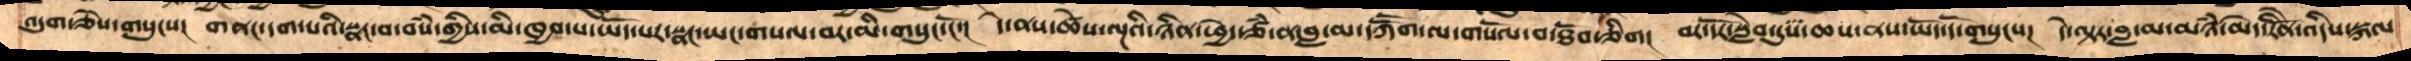འདུག་ཅེས་གསུངས།  གནང་དག་པའི་སྣང་བ་བསཾ་གྱིས་མི་ཁྱབ་པ་ཡོད་པར་སྣང་ཡང་གསལ་བར་མི་གསུང་ངོ་།  དེ་ནས་ཚེས་ལྔའི་ཉིན་ཕྱེད་ཙཾ་ན་བླ་མ་དཀཽག་ལ་གསོལ་བ་ཐོབ་ཅིག  བར་དོར་སླེབ་དུས་ཆས་ནས་ཡོད་དོ་གསུངས།  དེ་ལྟར་བླ་མ་མཉཾ་མེད་རིནོེ་འདིས་སྐལ
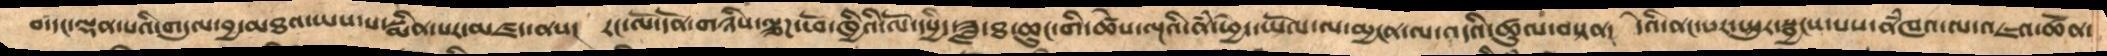བ་དང་ལྡན་པའི་གདུལ་བྱ་མཐའ་ཡས་པ་སྨིན་པར་མཛད་ནས།  རང་ལོ་དོན་གཉིས་པ་ལྕཌ་ཕོ་ཁྱིའི་ལོ་དཔྱིད་ཟླ་ཐ་ཆུང་གི་ཚེས་ལྔའི་ནཾ་ཕྱེད་ཡོལ་ལ་མྱ་ངན་ལ་འདའི་ཚུལ་བསྟན།  དེའི་ནང་བར་སྤུར་སྦྱངས་པས་ནཾཁའ་ལ་འཇའ་ཚོན་
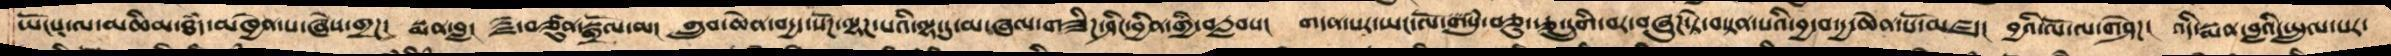ཡོངས་ལ་མཆིམ་ཐཾད་མཁྱེན་པ་ཞེས་གྲཌ།  སྨན་བླ།  རྗེ་བཙུན་སྒྲོལ་མ།  གྲུབ་ཆེན་བདྱད་སོཌ་ལྷཌ་པའི་ལྷ་དུ་མ་ཞལ་གཟིཌ་ཤིང་བྱིན་གྱི་བརླབས།   གདན་པར་ཡང་ལོ་གསུཾ་བཅུ་རྩ་དྲུགི་བར་བཞུཌ་ཏེ་བསྟན་པའི་བྱ་བ་དྱ་ཆེན་པོ་མཛད།  བྱའི་ལོ་ལ་གཤེཌ།  འདི་སྨན་བླའི་སྤྲུལ་པར་
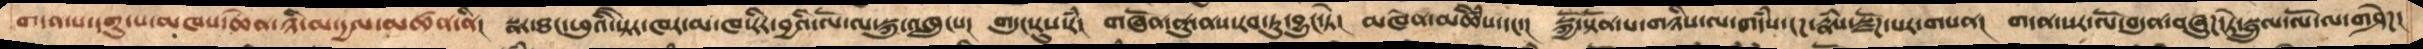གདན་ས་དགུ་པ་མཁས་ཆེན་ཉི་མ་དྱལ་མཚན་ནི།   སྣར་ཐང་ཕུའི་སྟེར་ཁར་མ་ཁ་རིར་བྱའི་ལོ་ལ་སྐུ་འཁྲུངས།   གདུང་རུས་རཾ།  གཞོན་ནུ་ནས་རབ་ཏུ་བྱུང་ཏེ།  མཁེན་མཆིཾས་དང་།  སྐྱོ་སྟོན་པ་གཉིས་ལ་གདཾས་ངཌ་རྣཾས་སྫོཌ་པར་གསན།   གདན་སར་ལོ་བདུན་བཞུཌ་ཏེ་སྦྲུལ་ལོ་ལ་གཤེཌ།
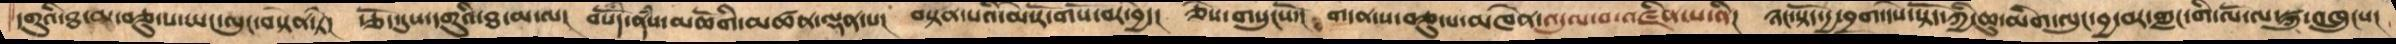དགུའི་ཐ་ན་བཅུ་པ་ཡང་ལུང་བསྟན་ཏེ།  རྩོད་དུས་དགུའི་ཐ་མ་ལ།  བསོད་ནཾས་མཆོགི་མཚན་ལྡན་པ།  བསྟན་པའི་མེ་རོ་གསོ་བར་བྱེད།  ཅེས་གསུངསོ་།  གདན་ས་བཅུ་པ་མཁེན་འདུལ་བ་འཛིན་པ་ནི།  ཉང་སྟོད་དྱ་བྲག་དེས་སྟོད་ཀྱི་ཆུ་མིག་ལུང་བྱ་བར་གླང་གི་ལོ་ལ་སྐུ་འཁྲུངས།
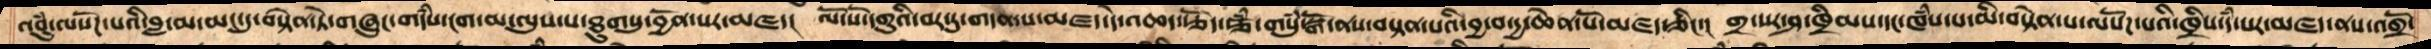འབུཾ་ལསོཌ་པའི་བླ་མ་མང་དུ་བསྟེན་ཏེ་གཞུང་གདཾས་ངག་མ་ལུས་པ་ཐུགསུ་བྱོན་པར་མཛད།  ལོ་སོ་དགུའི་བར་དུ་གདན་ས་མཛད་ཏེ་འཆད་རྩོད་རྩོཾ་གསུཾ་སྒོ་ནས་བསྟན་པའི་བྱ་བ་དྱ་ཆེན་པོ་མཛད་ཅིང་།  གྲ་སར་ཤ་ཁྲིམས་དང་ཁཾས་པ་མི་བསྟེན་པ་ལསོཌ་པའི་ཁྲིས་དཾ་པར་མཛད་ནས་འགྲོ་
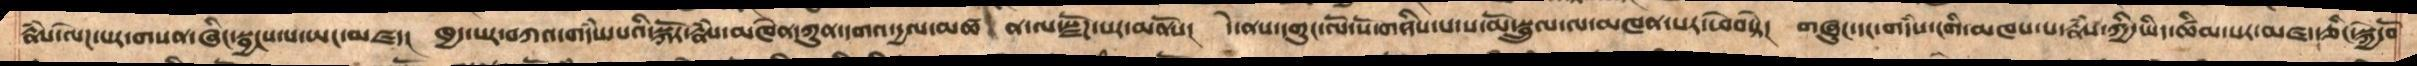རྣཾས་ལེཌ་པར་གསན་ཞིང་སྦྱངས་པ་ཡང་མཛད།  ཁྱད་པར་བཀའ་གདཾས་པའི་སྐོར་རྣཾས་མཁེན་ཀུན་དགའ་དྱལ་མཚན་ལ་སྫོཌ་པར་མནོས།  དེ་ནས་དགུང་ལོ་སོ་གཉིས་པ་ས་མོ་སྦྲུལ་ལ་མཁན་སར་ཕེབསྟེ།  གཞུང་དང་གདཾས་ངགི་མཁས་པ་རྣཾས་ཀྱི་ཡིད་ཚིམ་པར་མཛད་ཅིང་སྐྱེ་བོ
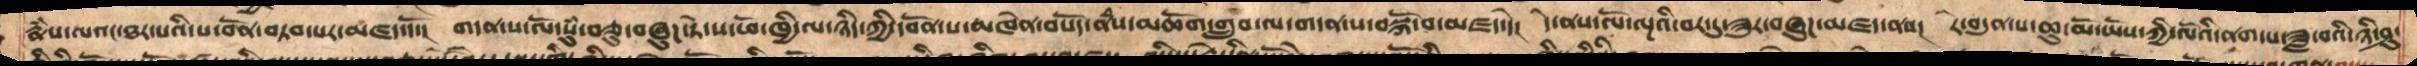རྣཾས་ལའང་ཐར་པའི་ས་བོན་བཏབ་པར་མཛད་དོ་།   གདན་ས་ལོ་སུཾ་བཅུ་བཞུཌ་ཏེ་ས་ཕོ་ཁྱི་ལ་ཉིད་ཀྱི་དབོན་ས་མཁེན་བསོད་ནཾས་མཆོག་གྲུབ་ལ་གདན་ས་བསྐོ་བ་མཛད་དེ།  དེ་ནས་ལོ་ལྔའི་བར་དུ་ཟུར་བཞུཌ་མཛད་ནས།  རེ་བདུན་པ་ཆུ་མོ་ཡོས་ཀྱི་ལོའི་ནག་པ་ཟླ་བའི་ཉི་ཤུ་
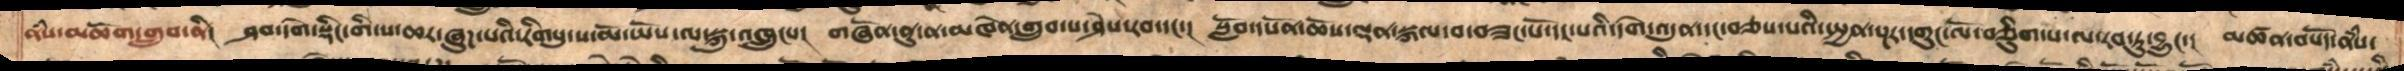ནཾས་མཆོག་གྲུབ་ནི།  ཤབ་དགེ་སྡིང་གི་ས་ཆར་ཞུཌ་པའི་རིགསུ་ས་མོ་ཡོས་ལ་སྐུ་འཁྲུངས།  གཞོན་ནུ་ན་མཁེན་གྲུབ་པ་ཤེས་རབ་དང་།   སློབ་དཔོན་ཆོས་ལྡན་སྐལ་བ་བཟང་པོ་དང་པའི་དགེ་འདུན་དང་བཅས་པའི་སྤྱན་སྔར་དགུང་ལོ་བཅིུག་པ་ལ་རབ་ཏུ་བྱུང་།  མཚན་བསོད་ནཾས་
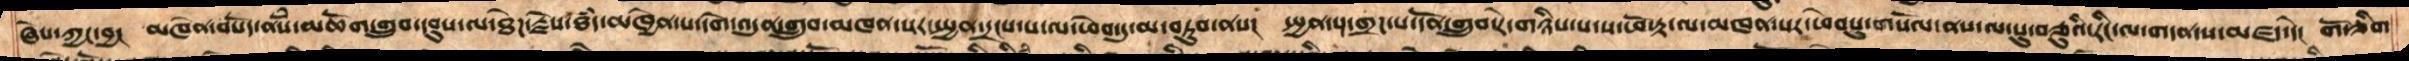ཞེས་ཀྱང་བྱ།  མཁེན་བསོད་ནཾས་མཆོག་གྲུབ་དབུས་ལ་ཐེཌ་རྗེས་ཐཾད་མཁྱེན་པ་དགེ་འདུན་གྲུབ་མཁན་སར་སྤྱན་དྲངས་པ་ལ་ཕེབ་དུ་མ་བཏུབ་ནས།  སྤྱན་སྔ་གྲཌ་པ་དོན་གྲུབ་རེ་གཉིས་པ་ས་ཕོ་རྟ་ལ་མཁན་སར་ཕེབསུ་གསོལ་ནས་ལ་སུ་བཅུའི་རིང་ལ་གདན་ས་མཛད་དེ།  གོ་ཅིག
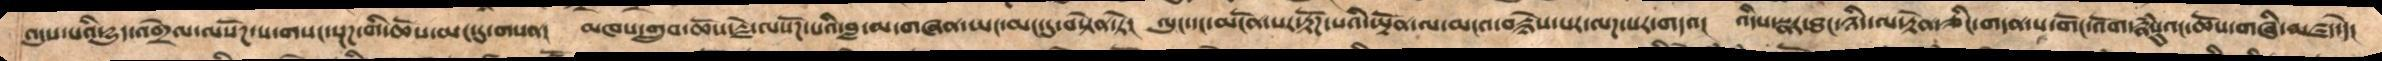འདུས་པའི་དྱུད་འགྲེལ་ལསོཌ་པ་གསང་སྔཌ་གི་ཆོས་མང་དུ་གསན།  མཁས་གྲུབ་ཆོས་རྗེ་ལསོཌ་པའི་་བླ་མ་གཞན་ཡང་མང་དུ་བསྟེན་ཏེ།  ལུང་དང་མངོན་པར་རྟོཌ་པའི་ཡྟོན་ལ་མངའ་བརྙེས་པར་ལཌ་པར་གདའ།  འདིས་སྣར་ཐང་ཉིད་ལ་རྟེན་ཅིང་གདན་ས་གོང་འོག་རྣཾསུའང་ཆོས་གཞི་མཛད་དེ།
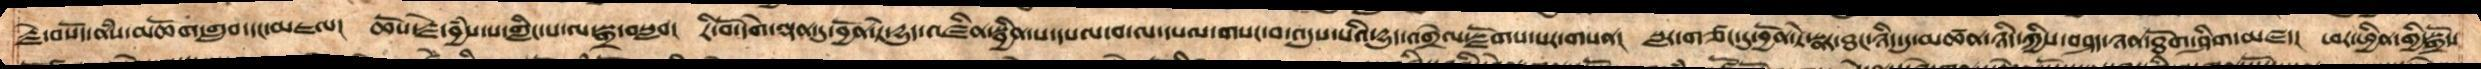རྗེ་བསོད་ནཾས་མཆོག་གྲུབ་དང་མཇལ།  ཆོས་རྗེ་བྱཾས་པ་གླིང་པ་ལ་སྒྲ་བསླབ།  རི་བོ་དགེ་ལྡན་དུ་བྱོན་ཏེ་དྱུད་འཛིན་སྦྱིན་པ་དཔལ་བ་ལ་དཔལ་གསང་བ་འདུས་པའི་དྱུད་འགྲེལ་སྫོགས་པར་གསན།  སླར་གཙང་དུ་བྱོན་ཏེ་སྣར་ཐང་ཉིད་དུ་མཚན་ཉིད་ཀྱིས་བཤད་ཉན་ཐོག་ཤིག་མཛད།  ཕར་ཕྱིན་གྱི་སྒྲོས
